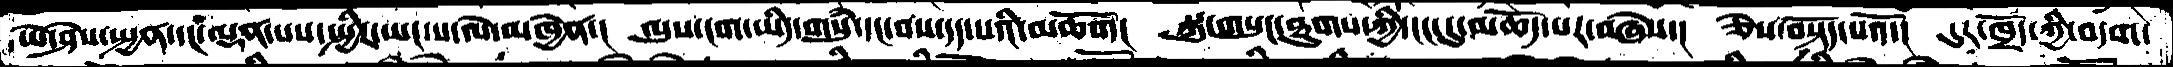ཡེ་ཤེས་སྤྱན་དང་ལྡན་པས་སྤྱིར་ཡང་ས་ལེ་མཁྱེན་།  ལུས་ངག་ཡིད་གསུཾ་དང་བས་དད་པའི་མཆོག།  སྐུ་གསུང་ཐུགས་ཀྱི་ངང་དུ་མཆོད་པར་བཞེས་།  ཅེས་བསྟོད་པའི་།  དུར་ཁྲོད་ཀྱི་བདག་
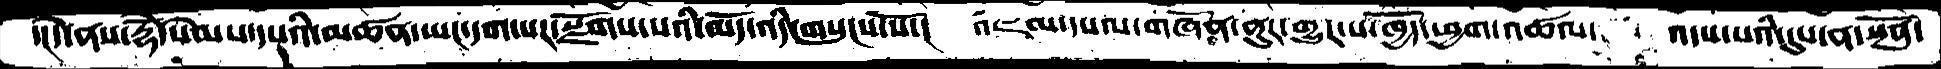་།དེ་ནས་རྡོེ་སེམས་དཔའི་མཚན་ཡང་དག་པར་སྫོགས་པའི་མདོ་འདི་གསུངས་སོ་།  འཇམ་དཔལ་གཞོན་ནུར་གྱུར་པ་ཁྱོད་ཕྱག་འཚལ་  འདས་པའི་དུས་ན་སྔོན་
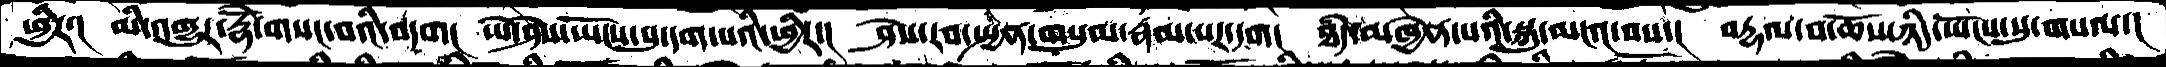ཕྱིར་།  མི་འགྱུར་རྡོཻ་གསང་བའི་བདག།  ཡེ་ཤེས་ཡོངས་སུ་དག་པའི་ཕྱིར་།  ཤེས་རབ་སྤྱན་གསུམ་རྣམ་པར་དག།  ཐཾད་མཁྱེན་པའི་སྐུ་མངའ་བས་།  བརྡལ་བ་ཆོས་ཉིད་ཡོངས་སུ་གསལ་།
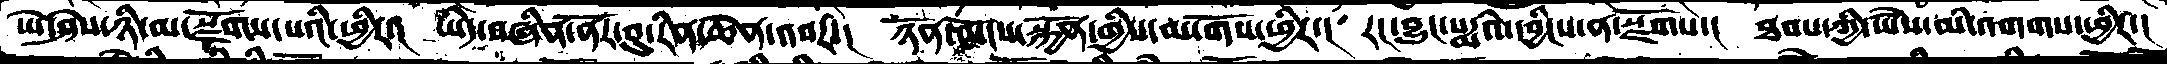ཡེ་ཤེས་ཉི་མ་སྫོགས་པའི་ཕྱིར་།  ཡིད་བཞིན་ནོར་བུ་རིན་ཆེན་འབར་།  ཉོན་མོངས་སྐྱོན་གྱིས་མ་གོས་ཕྱིར་།  རང་བྱུང་པདྨའི་དབྱིངས་ན་སྫོགས་།  ཐབས་ཀྱི་ཡཻས་མི་འགགས་ཕྱིར་།
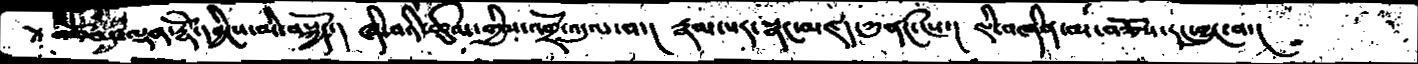མཚན་ལྡན་རྡོེ་དབྱིངས་མི་བསྐྱོད་།  ཞི་བའི་ཚུལ་གྱིས་འགྲོ་འདུལ་བ་། རྣམ་པར་སྣང་མཛད་ཀུནཟང་ངེས་། ཇི་བཞིན་མ་བཅོས་རང་བྱུང་བ་།
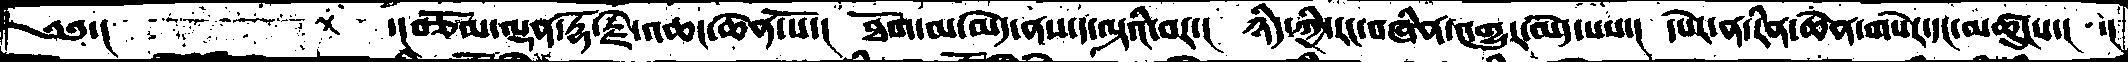༄༅་།         ་།བཅོམ་ལྡན་རྡོ་རྗེ་འཆང་ཆེན་པོ་།  ཐོག་མ་མེད་ནས་ད་ལྟའི་བར་།  ཉིད་ཀྱི་རང་བཞིན་འགྱུར་མེད་པས་།  དཔེར་ན་རིན་ཆེན་གསེར་དང་མཚུངས་།  ་།
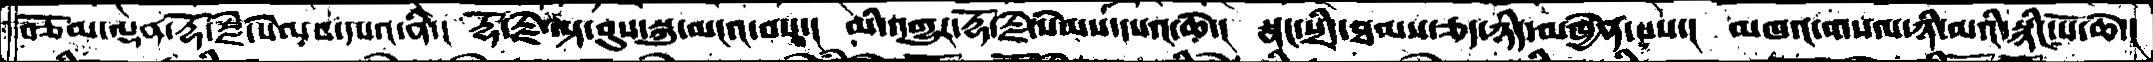བཅོམ་ལྡན་རྡོ་རྗེ་སེམས་དཔའ་ནི་།  རྡོ་རྗེ་ལྟ་བུས་སྐུ་མངའ་བས་།  མི་འགྱུར་རྡོ་རྗེ་སེམས་དཔའ་ཆེ་།  སྣང་སྲིད་ཐམས་ཅད་ཉིད་མཁྱེན་པས་།  མཁའ་གསལ་ཉི་མའི་སྙིང་པོ་ཆེ་།
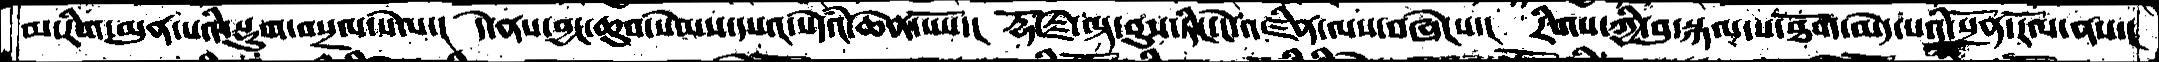མ་རིག་མུན་པའི་སྡུག་བསྔལ་སེལ་།  དེ་ནས་བྱང་ཆུབ་སེམས་དཔའ་སེཾདའ་ཆེན་པོས་།  རྡོ་རྗེ་ལྟ་བུས་ཏིང་ངེ་འཛིན་ལས་བཞེངས་།  རིགས་ཀྱི་བུ་སྐལ་པ་ཐོག་མེད་པའི་སྔོན་རོལ་ནས་།
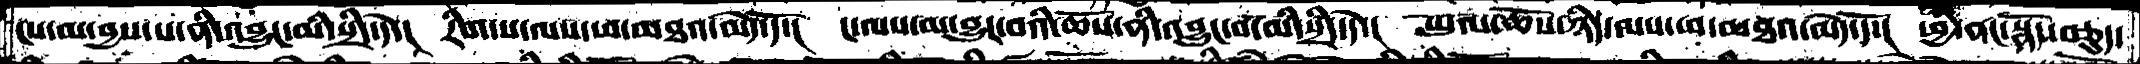ངས་མ་བྱས་པ་ནི་འབྱུང་མི་སྲིད་དེ་།  རིག་པ་ལས་ཕ་མཐའ་མེད་དོ་།  ང་ལས་མ་བྱུང་བའི་ཆོས་ནི་འབྱུང་བ་མི་སྲིད་དོ་།  ཡུལ་ཆོས་ཉིད་ལས་ཕ་མཐའ་མེད་དོ་།  ཕྱི་ནང་སྣོད་བཅུད་
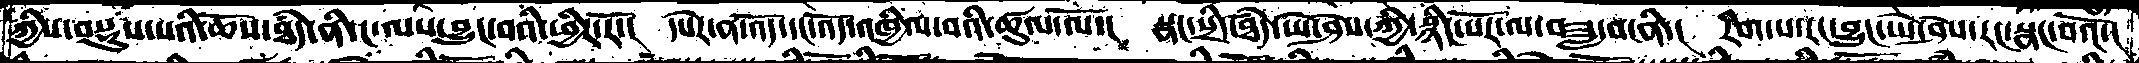ཀྱིས་བསྡུས་པའི་ཆོས་ཐཾད་ནི་ང་ལས་བྱུང་བའི་ཕྱིར་རོ་།  དཔེར་ན་འོད་དང་འོད་འཁྱིལ་བའི་ཚུལ་ལོ་།  སྣང་སྲིད་ཐཾད་ཡེ་ཤེས་ཀྱི་སྙིང་པོར་ལ་བཟླ་བ་ནི་།  རིག་པ་རང་བྱུང་ཡེ་ཤེས་རང་སྣང་བའོ་།
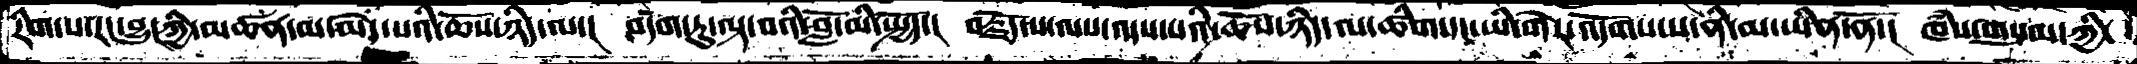རིག་པ་རང་བྱུང་ཀྱི་མཚན་མ་མེད་པའི་ཆོས་ཉིད་ལ་།  བདག་ཏུ་ལྟ་བའི་བློ་མི་སྤྱོད་།  བརྗོད་པ་ལས་འདས་པའི་ཆོས་ཉིད་ལ་ཚིག་དང་ཡི་གེར་འདོགས་པ་ནི་མ་ཡིན་ནོ་།  ཁཾས་གསུམ་གྱི་
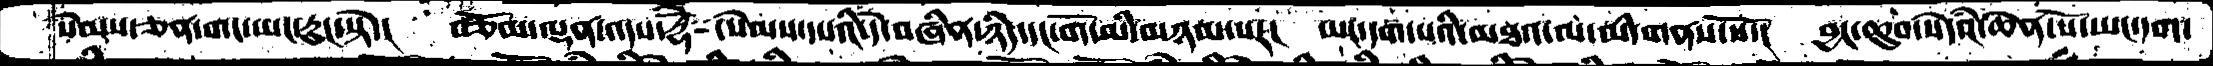སེམས་ཅན་གང་ཡང་རུང་སྟེ་།  བཅོམ་ལྡན་འདས་རྡོེ་སེམས་དཔའི་དེ་བཞིན་ཉིད་དང་གོ་མི་མཉམ་པར།  ཡང་དག་པའི་མཐའ་ལ་མི་གནས་སོ་།  བྱང་ཆུབ་སེདཾའ་ཆེན་པོ་ཡང་དག་
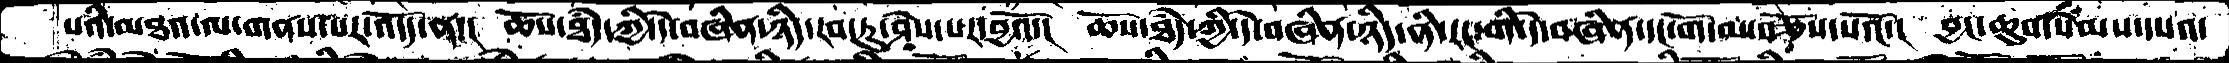པའི་མཐའ་ལ་གནས་པར་འོདད་ན་།  ཆོས་ཐཾད་ཀྱི་དེ་བཞིན་ཉིད་རབ་ཏུ་ཤེས་པར་བྱའོ་།  ཆོས་ཐཾད་ཀྱི་དེ་བཞིན་ཉིད་ནི་རང་གི་དེ་བཞིན་དང་གོ་བས་བཅོས་པའོ་།  བྱང་ཆུབ་སེམས་དཔའ་
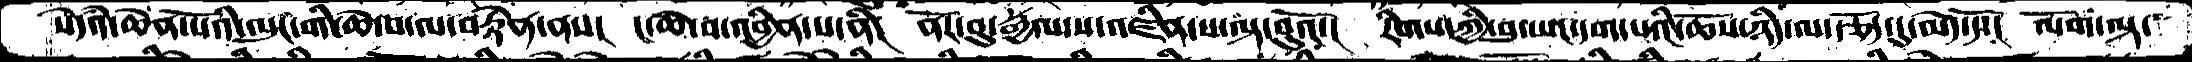སེདཾའ་ཆེན་པོའི་ལུང་གི་ཆེ་བ་ལ་བརྟེན་ནས།  ང་ཆེ་བ་འབྱིན་པ་ནི།  ནོར་བུ་རྒྱལ་ས་འཛིན་པ་ལྟ་བུའོ་།  རིགས་ཀྱི་བུ་ཡང་དག་པའི་ཆོས་ཉིད་ལ་རྩོད་དུ་མེད་དོ་།  ལོག་ལྟ་
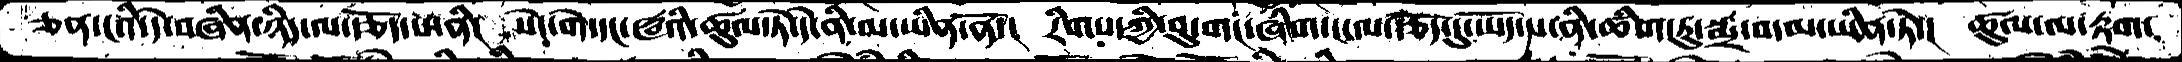ཅན་ངའི་དེ་བཞིན་ཉིད་ལ་རྩོད་པ་ནི།  སེང་གེ་དང་ཝའི་ཚུལ་ཏེ་དེ་ནི་མ་ཡིན་ནོ་།  རིགས་ཀྱི་བུ་གང་ཞིག་ང་ལ་རྩོད་དུ་ཡོད་པ་ནི་ཚིག་ཏུ་སྨྲ་བ་མ་ཡིན་ཏེ་།  ཚུལ་ལ་རྟག་
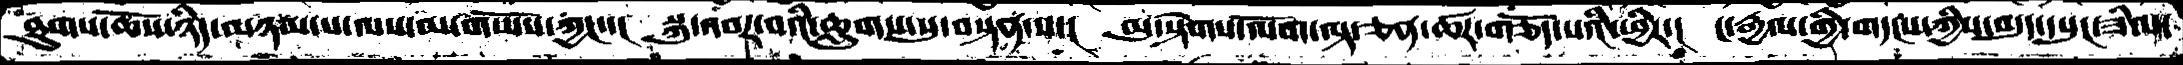ཐུགས་ཆོས་ཉིད་མཉམ་པ་ལས་མ་གཡོས་ཀྱང་་།  སྐུ་འབར་བའི་ཆླུགས་སུ་བསྟན་པ་།  མུ་སྟེགས་ལོག་ལྟ་ཅན་ཚར་གཅོད་པའི་ཕྱིར་།  ང་རྒྱལ་གྱི་གདངས་ཀྱིས་བདུད་དཔུང་ཟིལ་
